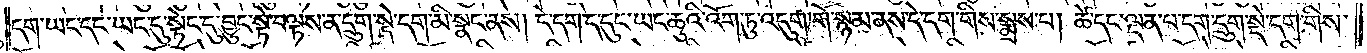དག་ཡང་དང་ཡང་དུ་སྟེང་དུ་བྱུང་སྟེ་བལྟས་ན་དྲུག་སྡེ་དག་མི་སྣང་ནས། དེ་དག་ད་དུང་ཡང་ཆུའི་འོག་ཏུ་འདུག་གོ་སྙམ་ནས་དེ་དག་གིས་སྨྲས་པ། ཚེ་དང་ལྡན་པ་དག་དྲུག་སྡེ་དག་གིས་
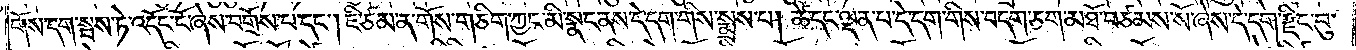གོས་དག་སྦས་ཏེ་འདོང་ངོ་ཞེས་བགྲོས་པ་དང༌། ཇི་ཙམ་ན་གོས་གཅིག་ཀྱང་མི་སྣང་ནས་དེ་དག་གིས་སྨྲས་པ། ཚེ་དང་ལྡན་པ་དེ་དག་གིས་བདག་ཅག་ལ་མཐོ་བཙམས་སོ་ཞེས་དེ་དག་རྫིང་བུ་
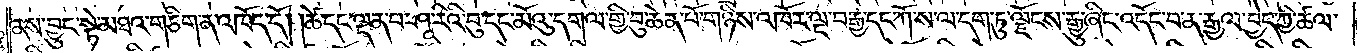ནས་བྱུང་སྟེ་མཐའ་གཅིག་ན་འཁོད་དོ། །ཚེ་དང་ལྡན་པ་ཤཱ་རིའི་བུ་དང་མོའུ་དགལ་གྱི་བུ་ཆེན་པོ་གཉིས་འཁོར་ལྔ་བརྒྱ་དང་ཀོ་ས་ལ་དག་ཏུ་ལྗོངས་རྒྱུ་ཞིང་འདོང་བ་ན་རྒྱལ་བྱེད་ཀྱི་ཚལ་
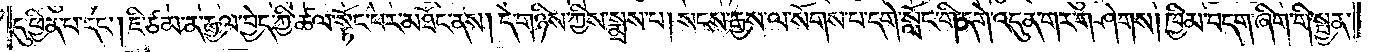དུ་ཕྱིན་པ་དང༌། ཇི་ཙམ་ན་རྒྱལ་བྱེད་ཀྱི་ཚལ་སྟོང་པར་མཐོང་ནས། དེ་གཉིས་ཀྱིས་སྨྲས་པ། སངས་རྒྱས་ལ་སོགས་པ་དགེ་སློང་གི་དགེ་འདུན་གར་གཤེགས། ཁྱིམ་བདག་ཞིག་གི་སྤྱན་
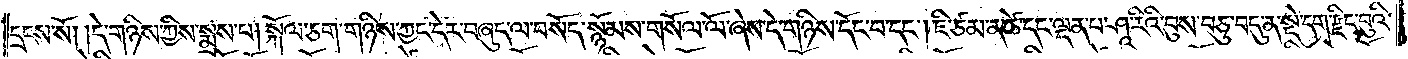དྲངས་སོ། །དེ་གཉིས་ཀྱིས་སྨྲས་པ། སྐོལ་ཅག་གཉིས་ཀྱང་དེར་བཞུད་ལ་བསོད་སྙོམས་གསོལ་ལོ་ཞེས་དེ་གཉིས་དོང་བ་དང༌། ཇི་ཙམ་ན་ཚེ་དང་ལྡན་པ་ཤཱ་རིའི་བུས་བཅུ་བདུན་སྡེ་དག་རྫིང་བུའི་
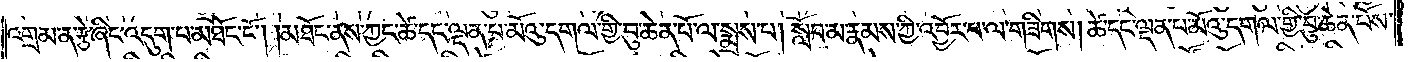འགྲམ་ན་རྩེ་ཞིང་འདུག་པ་མཐོང་ངོ༌། །མཐོང་ནས་ཀྱང་ཚེ་དང་ལྡན་པ་མོའུ་དགལ་གྱི་བུ་ཆེན་པོ་ལ་སྨྲས་པ། སློབ་མ་རྣམས་ཀྱི་འབྱོར་བ་ལ་གཟིགས། ཚེ་དང་ལྡན་པ་མོའུ་དགལ་གྱི་བུ་ཆེན་པོས་
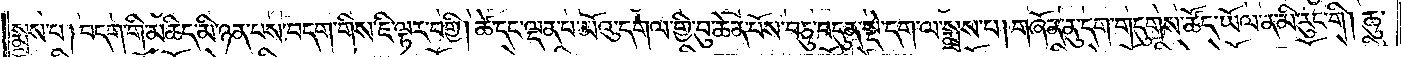སྨྲས་པ། བདག་གི་མཆིད་མི་ཉན་པས་བདག་གིས་ཇི་ལྟར་བགྱི། ཚེ་དང་ལྡན་པ་མོའུ་དགལ་གྱི་བུ་ཆེན་པོས་བཅུ་བདུན་སྡེ་དག་ལ་སྨྲས་པ། གཞོན་ནུ་དག་གདུགས་ཚོད་ཡོལ་ན་མི་རུང་གི། ཆུ་
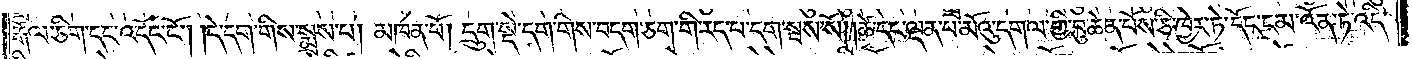རྒོལ་ཅིག་དང་འདོང་ངོ༌། །དེ་དག་གིས་སྨྲས་པ། མཁན་པོ། དྲུག་སྡེ་དག་གིས་བདག་ཅག་གི་རད་པ་དག་སྦས་སོ། །ཚེ་དང་ལྡན་པ་མོའུ་དགལ་གྱི་བུ་ཆེན་པོས་ཅི་ཁྱེར་ཏེ་དོང་ངམ་འོན་ཏེ་འདི་
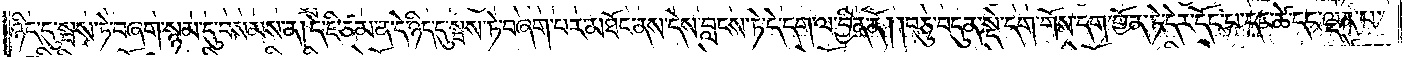ཉིད་དུ་སྦས་ཏེ་བཞག་སྙམ་དུ་བསམས་ན། དེ་ཇི་ཙམ་ན་དེ་ཉིད་དུ་སྦས་ཏེ་བཞག་པར་མཐོང་ནས་དེས་བླངས་ཏེ་དེ་དག་ལ་བྱིན་ནོ། །བཅུ་བདུན་སྡེ་དག་གོས་དག་གྱོན་ཏེ་དེར་དོང་བ་དང་ཚེ་དང་ལྡན་པ་
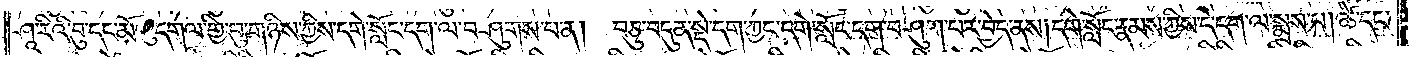ཤཱ་རིའི་བུ་དང་མོའུ་དགལ་གྱི་བུ་གཉིས་ཀྱིས་དགེ་སློང་དག་ལ་བཤུགས་པ་ན། བཅུ་བདུན་སྡེ་དག་ཀྱང་དགེ་སློང་དག་བཤུག་པར་བྱེད་ནས། དགེ་སློང་རྣམས་ཀྱིས་དེ་དག་ལ་སྨྲས་པ། ཚེ་དང་
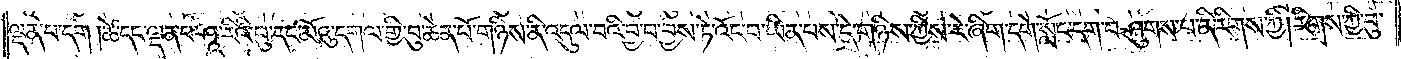ལྡན་པ་དག །ཚེ་དང་ལྡན་པ་ཤཱ་རིའི་བུ་དང་མོའུ་དགལ་གྱི་བུ་ཆེན་པོ་གཉིས་ནི་འདུལ་བའི་བྱ་བ་བྱས་ཏེ་འོང་བ་ཡིན་པས་དེ་གཉིས་ཀྱིས་རེ་ཞིག་དགེ་སློང་དག་བཤུགས་པ་ནི་རིགས་ཀྱི། རིགས་ཀྱི་བུ་
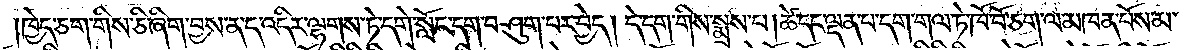ཁྱེད་ཅག་གིས་ཅི་ཞིག་བྱས་ན་ད་འདིར་ལྷགས་ཏེ་དགེ་སློང་དག་བཤུག་པར་བྱེད། དེ་དག་གིས་སྨྲས་པ། ཚེ་དང་ལྡན་པ་དག་གལ་ཏེ་ཁོ་བོ་ཅག་ལ་མཁན་པོས་མ་
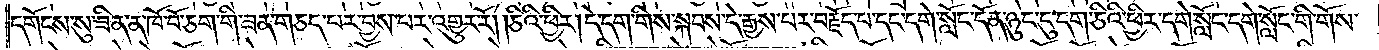དགོངས་སུ་ཟིན་ན་ཁོ་བོ་ཅག་གི་ཟན་གཅད་པར་བྱས་པར་འགྱུར་རོ། །ཅིའི་ཕྱིར། དེ་དག་གིས་སྐབས་དེ་རྒྱས་པར་བརྗོད་པ་དང་དགེ་སློང་དོན་ཉུང་དུ་དག་ཅིའི་ཕྱིར་དགེ་སློང་དགེ་སློང་གི་གོས་
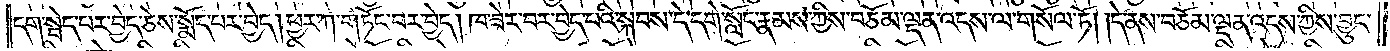དག་སྦེད་པར་བྱེད་ཅེས་སྨོད་པར་བྱེད། ཕྱར་ཀ་གཏོང་བར་བྱེད། ཁ་ཟེར་བར་བྱེད་པའི་སྐབས་དེ་དགེ་སློང་རྣམས་ཀྱིས་བཅོམ་ལྡན་འདས་ལ་གསོལ་ཏོ། །དེ་ནས་བཅོམ་ལྡན་འདས་ཀྱིས་བྱུང་
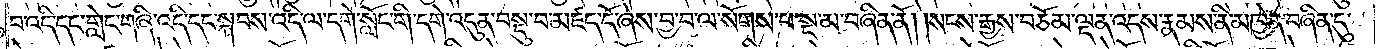བ་འདི་དང་གླེང་གཞི་འདི་དང་སྐབས་འདི་ལ་དགེ་སློང་གི་དགེ་འདུན་བསྡུ་བ་མཛད་དོ་ཞེས་བྱ་བ་ལ་སོགས་པ་སྔ་མ་བཞིན་ནོ། །སངས་རྒྱས་བཅོམ་ལྡན་འདས་རྣམས་ནི་མཁྱེན་བཞིན་དུ་
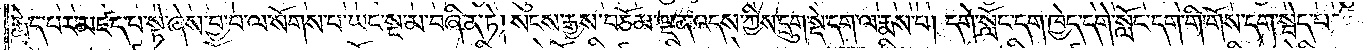རྨེད་པར་མཛད་པ་སྟེ་ཞེས་བྱ་བ་ལ་སོགས་པ་ཡང་སྔ་མ་བཞིན་ཏེ། སངས་རྒྱས་བཅོམ་ལྡན་འདས་ཀྱིས་དྲུག་སྡེ་དག་ལ་རྨས་པ། དགེ་སློང་དག་ཁྱེད་དགེ་སློང་དག་གི་གོས་དག་སྦེད་པ་
